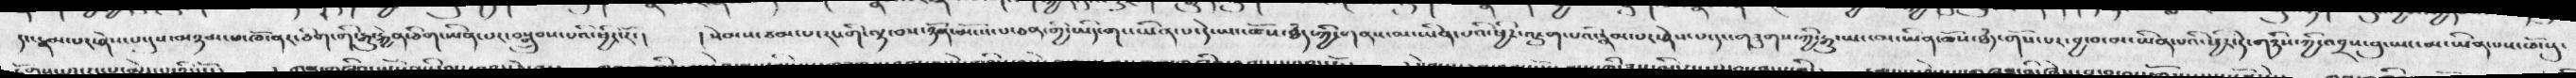དང་རྣམ་པར་ཤེས་པ་དུས་མཉམ་པ་ཁོ་ནར་ཅིག་གི་རྒྱུ་ཅིག་ཡིན་པར་བསྒྲུབས་པའི་ཕྱིར་རོ་།   ། སེམས་ཙམ་པར་རང་གི་ལྟ་བས་ཉོན་མོངས་པ་ཅན་གྱི་ཡིད་གང་ཡིན་པ་དེ་ཡང་ཆོས་ཐཾད་ཀྱི་གནས་མ་ཡིན་པའི་ཕྱིར་འཇུག་པའི་རྣམ་པར་ཤེས་པ་དང་གཟུགས་ཀྱི་རྒྱུ་ཡང་མ་ཡིན་ཆོས་ཐཾད་གོས་པར་བྱ་བ་མ་ཡིན་པའི་ཕྱིར་དེ་གཉིས་ཀྱི་འབྲས་བ་ཡང་མ་ཡིན་པས་ཁོངསུ་
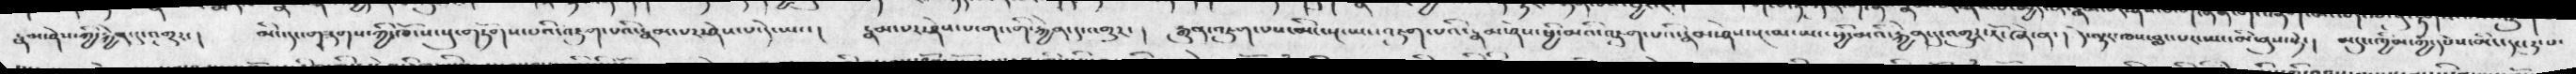རྣམ་ཤེས་ཀྱི་རྐྱེན་དུ་འགྱུར་།  མིང་དང་གཟུགས་ཀྱི་ཁོངས་སུ་གཏོགས་པའི་འཇུག་པའི་རྣམ་པར་ཤེས་པ་དེ་ཡང་།  རྣམ་པར་ཤེས་པ་གང་གི་རྐྱེན་དུ་འགྱུར་།  རྒྱུན་འཇུག་པས་མིང་སྔ་ཡང་འཇུག་པའི་རྣམ་ཤེས་ཕྱི་མའི་འཇུག་པའི་རྣམ་ཤེས་སྔ་མ་ཡང་ཕྱི་མའི་རྐྱེན་དུ་འགྱུར་རོ་ཞེ་ན་།  ད་ལྟར་ཁས་བླང་པར་ཡང་མི་ནུས་སྟེ་།  མདུང་ཁྱིམ་ཀྱི་དཔེས་མིང་དང་རུ་པ་
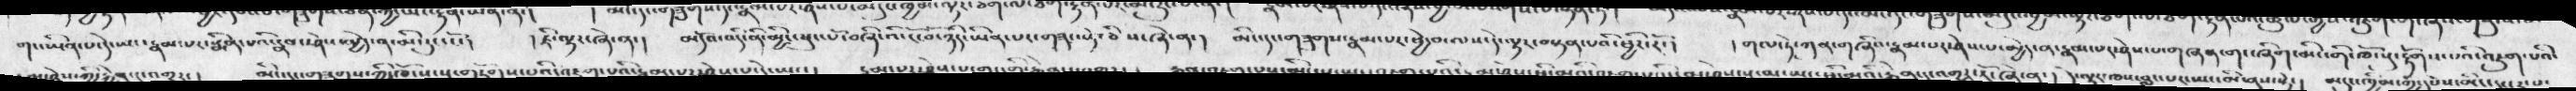གང་ཡིན་པ་དེ་ཡང་རྣམ་པར་སྨིན་པའི་རྣམ་ཤེས་མྱེད་ན་མི་རུང་ངོ་།    ། ཇི་ལྟར་ཞེ་ན་།   མདོའ་འདི་ནི་མྱིང་ཕུང་པོ་བཞི་འི་ངོ་བོ་ཉིད་ཡིན་པར་གཟུང་སྟེ་ཅིས་ཞེ་ན་།  མིང་དང་གཟུགས་རྣམ་པར་ཕྱེ་བ་ལས་དེ་ལྟར་བསྟན་པའི་ཕྱིར་རོ་།   ། གལ་ཏེ་ཀུན་གཞིའ་རྣམ་པར་ཤེས་པ་མྱེད་ན་རྣམ་པར་ཤེས་པ་གཞན་གང་ཞིག་མི་གི་ཁོངསུ་རྟོགས་པའི་འཇུག་པའི་
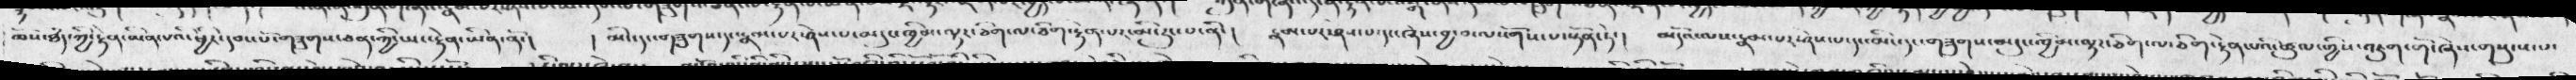ཆོས་ཐཾད་ཀྱི་རྟེན་ཡིན་པའི་ཕྱིར་དབང་པོ་གཟུགས་ཅན་ཀྱི་ཡང་རྟེན་ཡིན་ནོ་།   ། མིང་དང་གཟུགས་དང་རྣམ་པར་ཤེས་པ་མདུང་ཁྱིམ་ལྟར་ཅིག་ལ་ཅིག་རྟེན་པར་མི་རུང་པ་ནི་།  རྣམ་པར་ཤེས་པ་དང་ཞེས་བྱ་བ་ལསོགས་པ་སྟོན་ཏེ་།   མདོའ་ལས་རྣམ་པར་ཤེས་པ་དང་མིང་དང་གཟུགས་མདུང་ཁྱིམ་ལྟར་ཅིག་ལ་ཅིག་རྟེན་པའི་ཚུལ་གྱིས་འཇུག་གོ་ཞེས་གསུངས་པ་
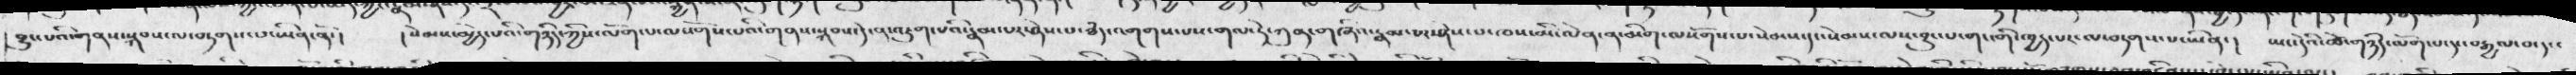བྱུང་པའི་གནས་སྐབས་ལ་བཏགས་པ་ཡིན་ནོ་།   ། སེམས་མྱེད་པའི་གཉིད་ཀྱིས་ལོག་པ་ལསོགས་པའི་གནས་སྐབས་དེ་ན་འཇུག་པའི་རྣམ་པར་ཤེས་པ་ཐཾད་འགགས་པས་གལ་ཏེ་ཀུན་གཞིའ་རྣམ་པར་ཤེས་པ་ཁས་མི་ལེན་ན་མིག་ལསོགས་པ་སེམས་དང་སེམས་ལས་བྱུང་པ་གང་གི་ཁྱད་པར་ལ་བདགས་པ་ཡིན་།  ཡང་དེའི་ཚེ་གཉིད་ལོག་པ་དང་བརྒྱལ་བ་དང་
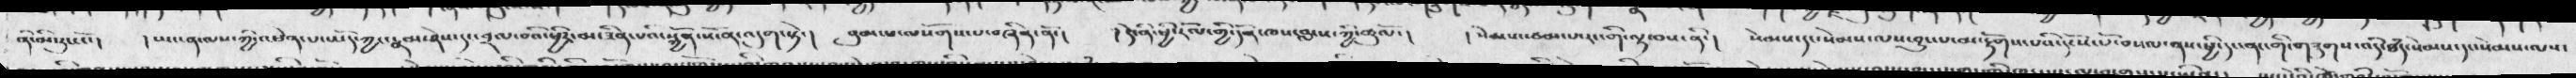ནི་མི་རུང་ངོ་།   ། ཡང་ན་ལས་ཀྱི་འཕེན་པ་ཡོད་ཀྱང་རྣམ་ཤེསདང་བྲལ་བའི་ཕྱིར་མ་ཟིན་པའི་སྐྱོན་སོ་ན་འདུག་སྟེ་།  བུམ་པ་ལསོགས་པ་བཞིན་ནོ་།  ། དེ་ནི་ཕྱི་རོལ་གྱི་དོན་ཁས་བླངས་ཀྱི་ཚུལོ་།   ། སེམས་ཙམ་པ་དང་རང་གི་ལྟ་བས་ནི་།   སེམས་དང་སེམས་ལས་བྱུང་པ་མ་རྟོགས་པའི་དངོས་པོ་བསལ་ནས་ཕྱི་དང་ནང་གི་གཟུགས་འདི་ཐཾད་སེམས་དང་སེམས་ལས་
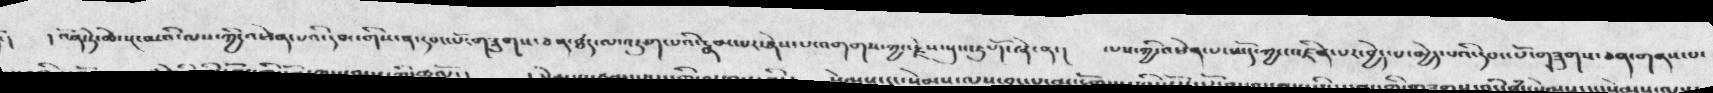།  འོན་ཏེ་ཚེ་སྔ་མའི་ལས་ཀྱི་འཕེན་པའི་དབང་གིས་ན་དབང་པོར་གཟུགས་ཅན་ཐཾད་ལ་འཇུག་པའི་རྣམ་པར་ཤེས་པ་འགགས་ཀྱང་རྗེས་སུ་འཇུགོ་ཞེ་ན་།  ལས་ཀྱི་འཕེན་པ་ཡོད་ཀྱང་འཛིན་པར་བྱེད་པ་མྱེད་པའི་དབང་པོ་གཟུགས་ཅན་གནས་པ་
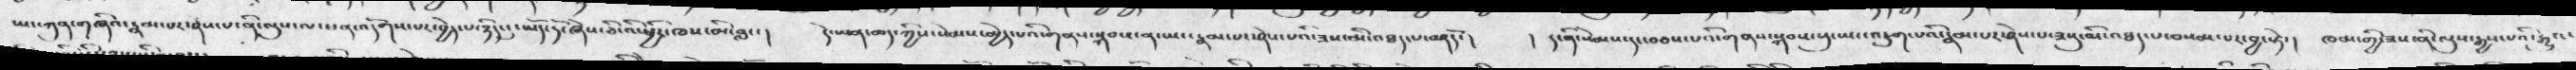ཡང་ཀུན་གཞིའ་རྣམ་པར་ཤེས་པ་ནི་ལུས་ལས་ཕན་འདོགས་པར་བྱེད་པ་ཉིད་དུ་ཡོད་དོ་ཞེས་ཅི་འི་ཕྱིར་ཁས་མི་བླང་།   ད་ཡན་ཆད་ཀྱིས་སེམས་མྱེད་པའི་གནས་སྐབས་ན་ཡང་རྣམ་པར་ཤེས་པའི་ཟས་མི་འཐད་པ་བཤདོ་།   ། ད་ནི་སེམས་དང་བཅས་པའི་གནས་སྐབས་སུ་ཡང་འཇུག་པའི་རྣམ་པར་ཤེས་པ་ཟསུ་མི་འཐད་པ་བསམ་པར་བྱ་སྟེ་།   ཁམ་གྱི་ཟས་ནི་ལུས་རྒྱས་པའི་རྒྱུའ་
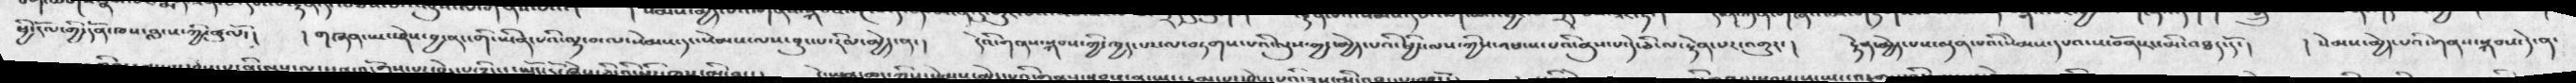ཕྱི་རོལ་གྱི་དོན་ཁས་བླངས་ཀྱི་ཚུལོ་།  ། གཞན་ཡང་ཤེས་བྱ་ནང་གི་ཡིན་པའི་ལྟ་བ་ལ་སེམས་དང་སེམས་ལས་བྱུང་པ་རིམ་མྱེད་ན་།   དེའི་སྐབས་ཀྱི་ཁྱད་པར་ལ་བཏགས་པའི་ལུས་ཀྱང་མྱེད་པའི་ཕྱིར་ལས་ཀྱིས་འཕངས་པའི་ནུས་པ་དེ་ཅི་ལ་རྟེན་པར་འགྱུར་།   རྟེན་མྱེད་པས་ལྡན་པའི་སེམས་དཔའ་ས་བོན་རང་མི་འཐད་དོ་།   ། དེའི་གནས་སྐབས་ཀྱི་ཁྱད་པར་ལ་བཏགས་པའི་ལུས་ཀྱང་མྱེད་པའི་ཕྱིར་ལས་ཀྱིས་འཕངསཔའི་ནུས་པ་དེ་ཅི་ལ་རྟེན་པར་འགྱུར་།   རྟེན་མྱེད་པས་ལྡན་པའི་སེམས་དཔའ་ས་བོན་རང་མི་འཐད་དོ་།  ། སེམས་མྱེད་པའི་གནས་སྐབས་དེ་ན་
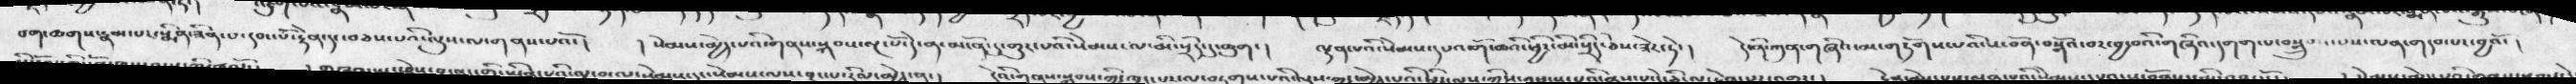བག་ཆགས་རྣམ་པར་སྨིན་པའི་ཟིན་པའི་དབང་པོ་རྟེན་དང་བཅས་པའི་ལུས་ལ་གནས་པའོ་།  ། སེམས་མྱེད་པའི་གནས་སྐབས་ལྔ་པོ་དེ་ན་མངོན་དུ་གྱུར་པའི་སེམས་ལ་མི་སྲིད་དུ་ཆུག་།   ལྡན་པའི་སེམས་དཔའི་གོ་ཆོའི་ཕྱིར་མི་སྲིད་ཅེས་ཟེར་ཏེ་།  དེ་ནི་ཀུན་གཞིའ་མ་གཏོགས་པའི་ས་བོན་བསྒོའ་བར་བྱ་བའི་གཞིའ་དགག་པ་བསྒྲུབས་པས་ལན་གདབ་པར་བྱའོ་།
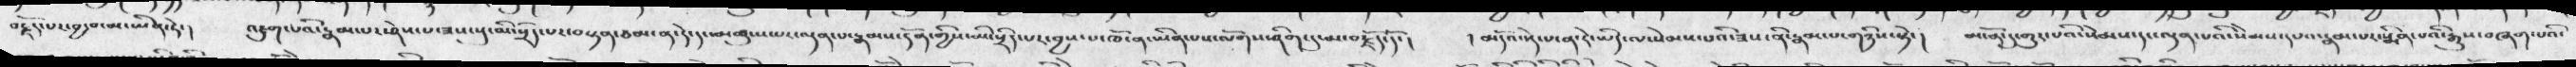བརྗོད་པར་བྱ་བ་མ་ཡིན་ཏེ་།  འཇུག་པའི་རྣམ་པར་ཤེས་པ་ཟས་སུ་མི་སྲིད་པར་བསྟན་ཙམ་ན་དེ་དང་མཚུངས་པར་ལྡན་པ་རྣམས་དོན་གྱིས་མི་སྲིད་པར་བྱས་པ་ཁོ་ན་ཡིན་པས་ལོགས་ཤིག་དུ་མ་བརྗོད་དོ་།   ། མདོའ་སྡེ་པ་ན་རེ་ཡིད་ལ་སེམས་པའི་ཟས་ནི་རྣམ་པ་གཉིས་སྟེ་།  མངོམ་དུ་གྱུར་པའི་སེམས་དང་ལྡན་པའི་སེམས་དཔའ་རྣམ་པར་སྨིན་པའི་རྒྱུས་བཞག་པའི་
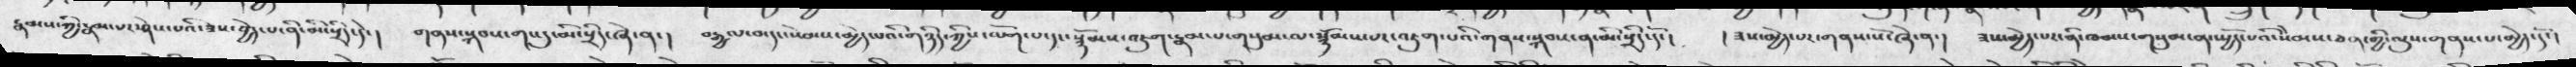རྣམས་ཀྱི་རྣམ་པར་ཤེས་པའི་ཟས་བྱེད་པ་ནི་མི་སྲིད་དེ་།  གནས་སྐབས་གང་དུ་མི་སྲིད་ཞེ་ན་།  བརྒྱལ་བ་དང་སེམས་མྱེད་པའི་གཉིད་ཀྱིས་ལོག་པ་དང་སྙོམས་འཇུག་རྣམ་པ་གསུམ་ལ་སྙོམས་པར་འཇུག་པའི་གནས་སྐབས་ན་མི་སྲིད་དོ་།   ། ཟས་མྱེད་པར་གནས་སོ་ཞེ་ན་།  ཟས་མྱེད་པར་ནི་ཁམས་གསུམ་ན་སྤྱོད་པའི་སེམས་ཅན་གྱི་ལུས་གནས་པ་མྱེད་དོ་།
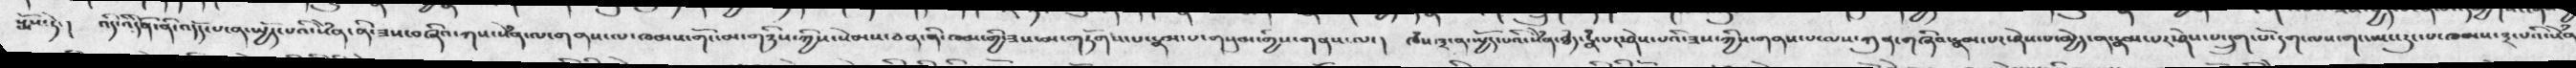སྨོས་དེ་།  འདི་ན་དོན་ནི་འདོད་པ་ན་སྤྱོད་པའི་སེཾན་ནི་ཟས་བཞིའ་ཀས་སེཾན་ལ་གནས་ལ་ཁམས་གོང་མ་གཉིས་ཀྱིས་སེམས་ནི་ཁམ་གྱི་ཟས་མ་གཏོགས་པ་རྣམ་པ་གསུམ་གྱིས་གནས་ལ་།   ཁཾས་༣་ན་སྤྱོད་པའི་སེཾན་ཐཾད་རྣཾ་པར་ཤེས་པའི་ཟས་ཀྱིས་གནས་པ་ལས་ཀུན་གཞིའ་རྣམ་པར་ཤེས་པ་མྱེད་ན་རྣམ་པར་ཤེས་པ་དྲུག་པོ་དག་ས་གང་ཡང་རུང་པ་ཁམས་༣་པའི་སེཾན
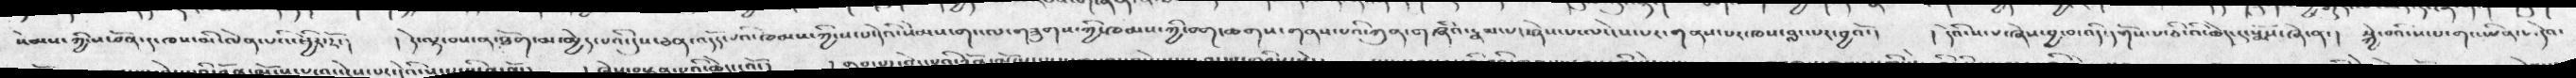སེམས་ཀྱི་ས་བོན་དུ་ཁས་མི་ལེན་པའི་ཕྱིར་རོ་།  ། དེ་ལྟ་བས་ན་ཐོག་མ་མྱེད་པའི་དུས་ཕན་འདོད་པའི་ཁམས་ཀྱི་པ་དེའི་སེམས་གང་ལ་གཟུགས་ཀྱི་ཁམས་ཀྱི་བག་ཆགས་གནས་པའི་ཀུན་གཞིའ་རྣམ་པར་ཤེས་པ་ལ་ངེས་པར་གནས་པར་ཁས་བླང་པར་བྱའོ་།   །  དེའི་ས་པ་ཞེས་བྱ་བ་འདི་དགོས་པ་ཅི་འི་ཆེད་དུ་སྨོས་ཞེས་ན་ །  སྐྱེ་བའི་ས་པ་གང་ཡིན་པ་དེའ་
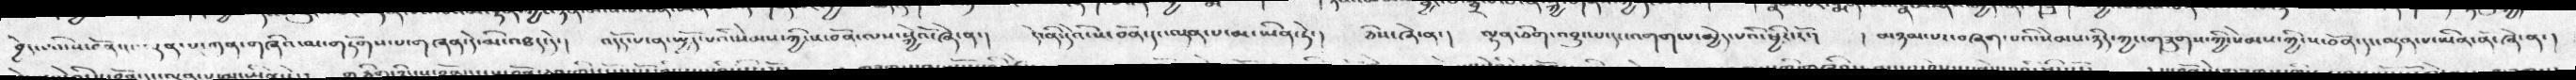བྱེད་པའི་ས་བོན་དང་ལྡན་པ་ཀུན་གཞིའ་མ་གཏོགས་པ་གཞཉ་དེ་མི་འཐད་དེ་།  འདོད་པ་ན་སྤྱོད་པའི་སེམས་ཀྱི་ས་བོན་ལས་སྐྱེའོ་ཞེ་ན་།  དེ་ནི་དེའི་ས་བོན་དང་ལྡན་པ་མ་ཡིན་ཏེ་།  ཅིས་ཞེ་ན་།   ལྷན་ཅིག་འབྱུང་པ་དང་འགག་པ་མྱེད་པའི་ཕྱིར་རོ་།  ། མཉམ་པར་བཞག་པའི་སེམས་ཉིད་ཀྱང་གཟུགས་ཀྱི་སེམས་ཀྱི་ས་བོན་དང་ལྡན་པ་ཡིན་ནོ་ཞེ་ན་།
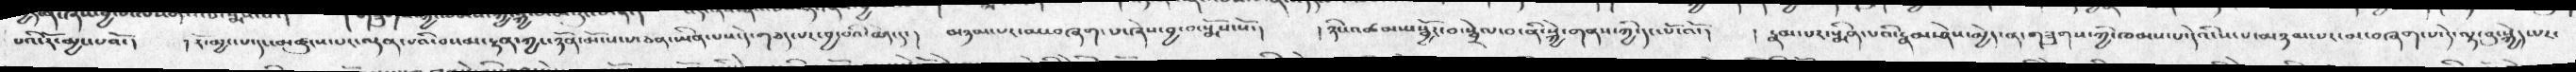པའི་རོ་མྱང་པའོ་།  ། རོ་མྱང་པ་དང་མཚུངས་པར་ལྡན་པའི་བསམ་རྟན་ཀྱང་ཉོན་མོངས་པ་ཅན་ཡིན་པས་དེ་གཅད་པར་བྱ་བའི་ཆེད་དུ་།   མཉམ་པར་མ་བཞག་པ་ཞེས་བྱ་བ་སྨོས་སོ་།   ། ཉིང་འཚམས་སྦྱོར་བ་སྦྲེལ་བ་ནི་སྐྱེ་གནས་ཀྱ་དང་པོ་འོ་།  ། རྣམ་པར་སྨིན་པའི་རྣམ་ཤེས་མྱེད་ན་གཟུགས་ཀྱི་ཁམས་པ་དེའི་ས་པ་མཉམ་པར་མ་བཞག་པ་དེ་ལྟ་བུ་སྐྱེད་པར་
